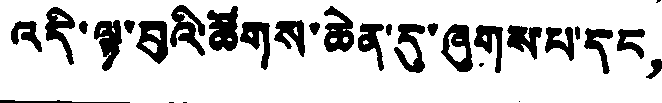འདི་ལྟ་བུའི་ཚོགས་ཆེན་དུ་ཞུགས་པ་དང，
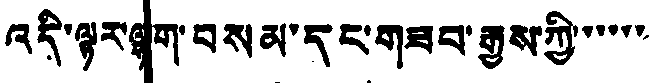འདི་ལྟར་ལྷག་བསམ་དང་གཟབ་རྒྱས་ཀྱི་་་་་་
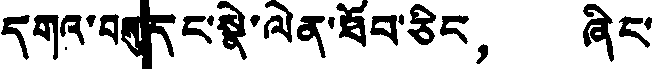དགའ་བསུདང་སྣེ་ལེན་ཐོབ་ཅིང， ཞིང་
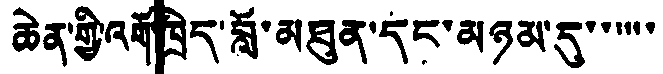ཆེན་གྱི་འགོ་ཁྲིད་བློ་མཐུན་དང་མཉམ་དུ་་་་་་
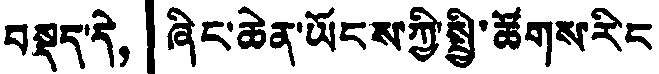བསྡུད་དེ， ཞིང་ཆེན་ཡོངས་ཀྱི་སྤྱི་ཚོགས་རིང
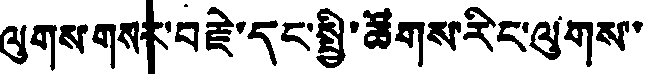ལུགས་གསར་བརྗེ་དང་སྤྱི་ཚོགས་རིང་ལུགས་་
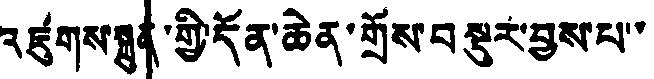འཛུགས་སྐྲུན་གྱི་དོན་ཆེན་གྲོས་བསྡུར་བྱས་པ་་
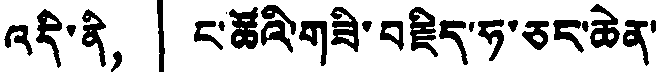འདི་ནི， ང་ཚོའི་གཟི་བརྗིད་ཧ་ཅང་ཆེན་
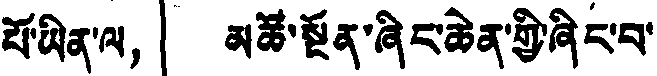པོ་ཡིན་ལ， མཚོ་སྔོན་ཞིང་ཆེན་གྱི་ཞིང་བ་
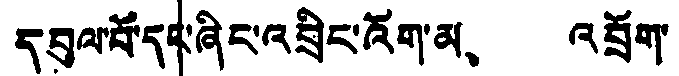དབུལ་བོ་དའ་ཞིང་འབྲིང་འོག་མ、 འབྲོག་
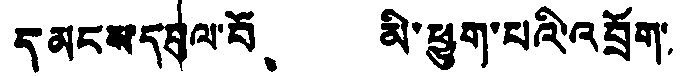དམངས་དབུལ་བོ、 མི་ཕྱུག་པའི་འབྲོག་
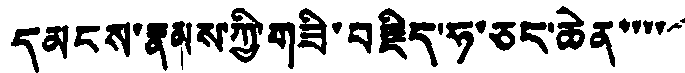དམངས་རྣམས་ཀྱི་གཟི་བརྗིད་ཧ་ཅང་ཆེན་་་་་
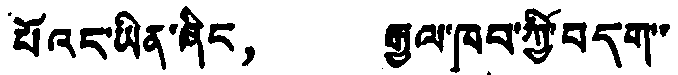པོའང་ཡིན་ཞིང， རྒྱལ་ཁབ་ཀྱི་བདག་་
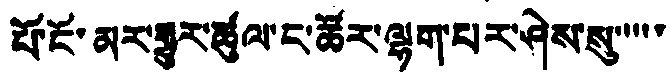པོ་ངོ་མར་རྒྱུར་ཚུལ་ང་ཚོར་ལྷག་པར་ཤེས་སུ་་་་་
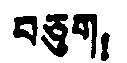བཅུག！
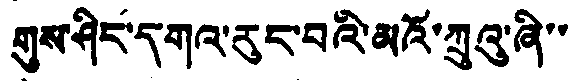གུས་ཤིང་དགའ་རུང་བའི་མའོ་ཀྲུའུ་ཞི་་
